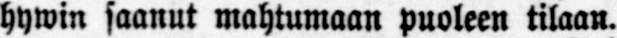hywin saanut mahtumaan puoleen tilaan.
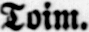Toim.
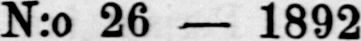N:o 26 — 1892
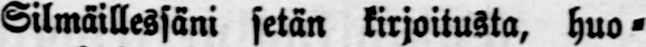Silmäillessäni setän kirjoitusta, huo-
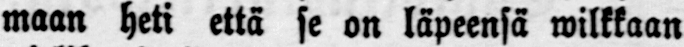maan heti että se on läpeensä wilkkaan
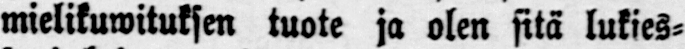mielikuwituksen tuote ja olen sitä lukies-
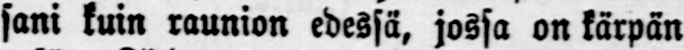sani kuin raunion edessä, jossa on kärpän
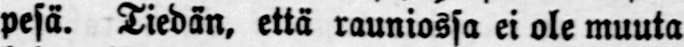pesä. Tiedän, että rauniossa ei ole muuta
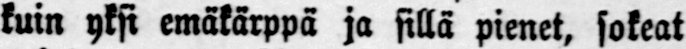kuin yksi emäkärppä ja sillä pienet, sokeat
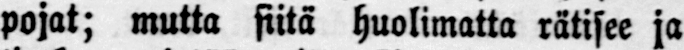pojat; mutta siitä huolimatta rätisee ja
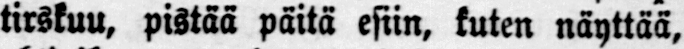tirskuu, pistää päitä esiin, kuten näyttää,
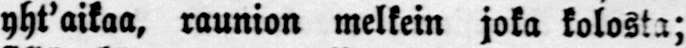yht'aikaa, raunion melkein joka kolosta;
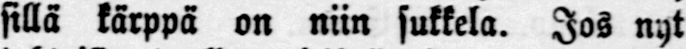sillä kärppä on niin sukkela. Jos nyt
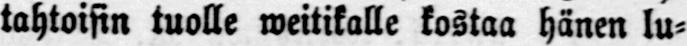tahtoisin tuolle weitikalle kostaa hänen lu-
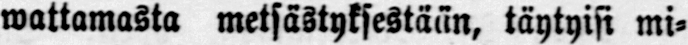wattamasta metsästyksestään, täytyisi mi-
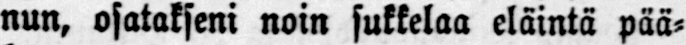nun, osatakseni noin sukkelaa eläintä pää-
